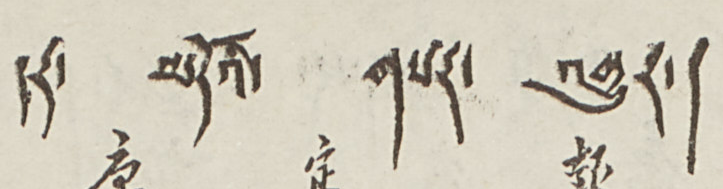དར་ མདོའི་ གསར་ འགྱུར།
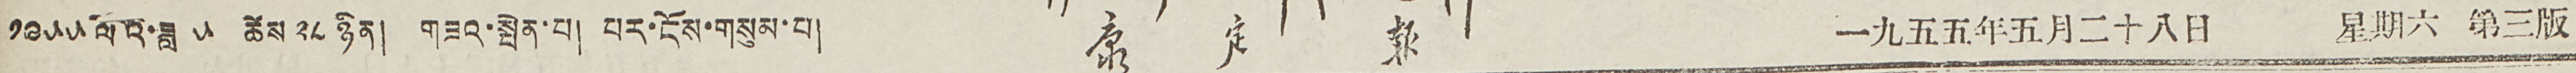༡༩༥༥ ལོའི་ཟླ ༥ ཚེས ༢༨ ཉིན། གཟའ་སྤེན་པ། པར་ངོས་གསུམ་པ། 康 定 報 一九五五年五月二十八日 星期六 第三版
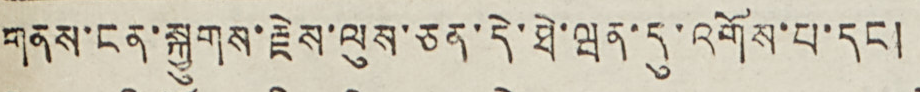གནས་ངན་སྐྱུགས་རྗེས་ལུས་ཅན་དེ་ཐེ་ཝན་དུ་འགོས་པ་དང །
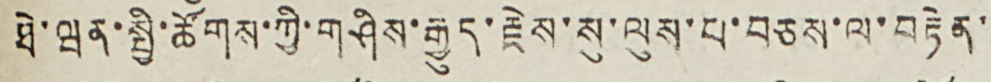ཐེ་ཝན་སྤྱི་ཚོགས་ཀྱི་གཤིས་རྒྱུད་རྗེས་སུ་ལུས་པ་བཅས་ལ་བརྟེན་
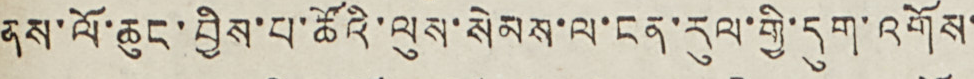ནས་ལོ་ཆུང་བྱིས་པ་ཚོའི་ལུས་སེམས་ལ་ངན་རུལ་གྱི་དུག་འགོས་
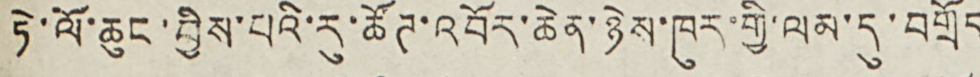ཏེ་ལོ་ཆུང་བྱིས་པའི་རུ་ཚོཊ་འབོར་ཆེན་ཉེས་ཁུར་གྱི་ལམ་དུ་བགྲོད
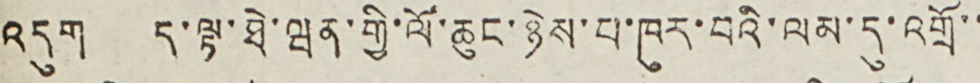འདུག ད་ལྟ་ཐེ་ཝན་གྱི་ལོ་ཆུང་ཉེས་པ་ཁུར་བའི་ལམ་དུ་འགྲོ་་
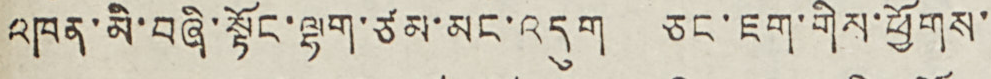འཁན་མི་བཞི་སྟོང་ལྷག་ཙམ་མང་འདུག ཅང་ཇག་གིས་ཕྱོགས་
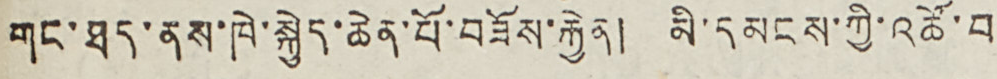གང་ཐད་ནས་ཁེ་སྐྱེད་ཆེན་པོ་བཟོས་རྐྱེན། མི་དམངས་ཀྱི་འཚོ་བ
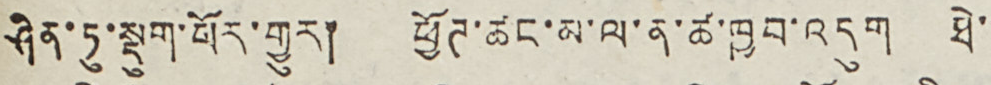ཤིན་ཏུ་སྡུག་པོར་གྱུར། ཕྱོཊ་ཚང་མ་ལ་ན་ཚ་ཁྱབ་འདུག ཐེ་
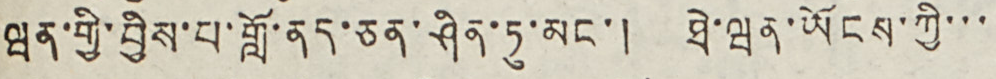ཝན་གྱི་བྱིས་པ་གློ་ནད་ཅན་ཤིན་ཏུ་མང་། ཐེ་ཝན་ཡོངས་ཀྱི་་་
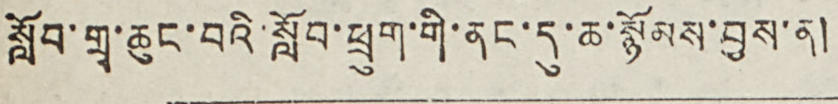སློབ་གྲྭ་ཆུང་བའི་སློབ་ཕྲུག་གི་ནང་དུ་ཆ་སྙོམས་བྱས་ན།
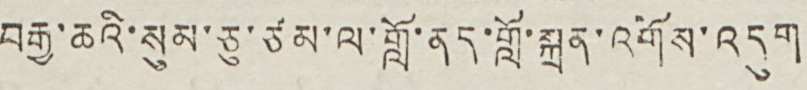བརྒྱ་ཆའི་སུམ་ཅུ་ཙམ་ལ་གློ་ནད་གློ་སྐྲན་འགོས་འདུག
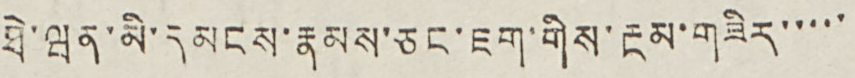ཐེ་ཝན་མི་དམངས་རྣམས་ཅང་ཇག་གིས་རྔམ་གཟིར་་་་་
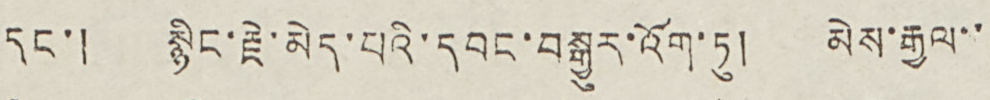དང་། སྙིང་རྗེ་མེད་པའི་དབང་བསྒྱུར་འོག་ཏུ། མེས་རྒྱལ་་
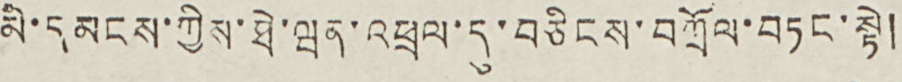མི་དམངས་ཀྱིས་ཐེ་ཝན་འཕྲལ་དུ་བཅིངས་བཀྲོལ་བཏང་སྟེ།
